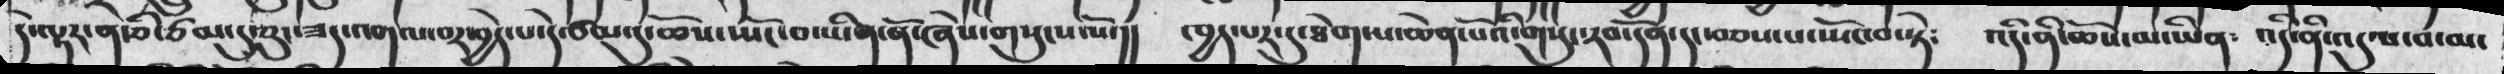དེ་ལྟར་ནེ་ཅི་ཙམ་དུ་ཅུ་ཟད་འགལ་བར་བྱེད་པ་དེ་ཙམ་དུ་ཆོས་ཡོང་བ་ཡིན་ནོ་ཞེས་གསུངསལོ་།།  ཁྱད་པར་དུ་ཐེགས་པ་ཆེན་པོའི་གསུང་རབ་དོན་དང་བབས་པ་ཡོང་བ་ཏེ༴ འདི་ནི་ཆོས་མ་ཡིན༴ འདི་ནི་འདུལ་བ་མ་
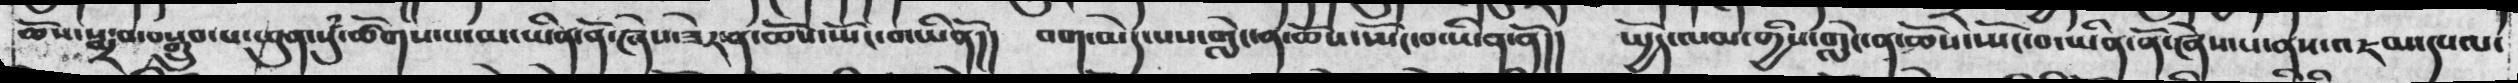ཆོས་སྨྲ་བ་བསྒྲུབ་པ་ཕུན་སུཾ་ཚོགས་པ་མ་ཡིན་ནོ་ཞེས་ཟེར་ན་ཆོས་ཡོང་བ་ཡིནོ།། བག་མེད་པས་གླེང་ན་ཆོས་ཡོང་བ་
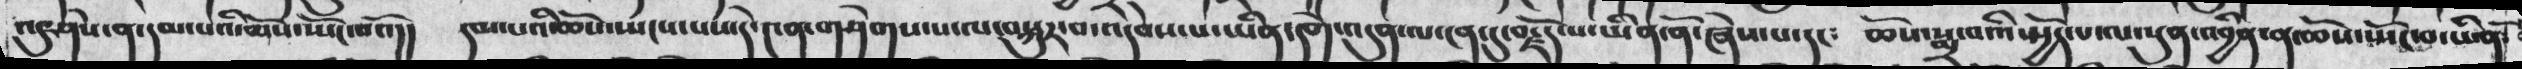འདུ་ཤེས་ན་དམ་པའི་ཆོས་ཡོང་བའོ་།།   དམ་པའི་ཆོས་སྤངས་པས་དེ་༤ན་གཤེགས་པ་ལ་བསྐུར་བ་འདེབས་པ་ཡིན་དགེ་འདུན་ལ་ངན་དུ་བརྗོད་པ་ཡིན་ནོ་ཞེས་པ་དང༴   ཆོས་སྨྲ་བའི་ཡྱོད་པ་ལ་སུན་འབྱིན་ན་ཆོས་སྤོང་བ་ཡིན་
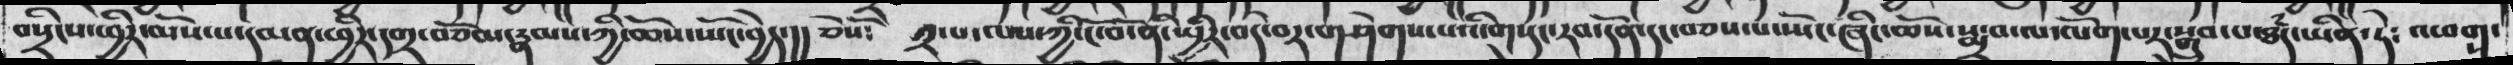བསྲིངས་ཕྱིར་མོས་པ་དམན་ཕྱིར་དགྲ་བཅོམ་རྣམས་ཀྱི་ཆོས་སྤོང་བྱེད་།།  ཅེསོ༴  ༢་པ་ལས་ཀྱི་ངོ་བོ་ནི་སྤྱིར་བདེ་བར་གཤེགས་པ་དི་གསུང་རབ་དོན་དང་བཅས་པ་སྤོང་ཞིང་ཆོས་སྨྲ་བ་ལ་ལོག་པར་སྒྲུབ་པ་ཐཾད་ཡིན་ཏེ༴  འཕག་
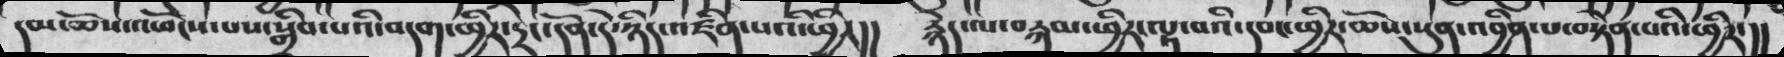དམ་ཆོས་འཕོངས་པས་སྒྲིབ་པའི་བདག་ཕྱིར་དྲང་དོན་དེ་ཉིད་འཛིན་པའི་ཕྱིར།།  རྙེད་ལ་བརྐམ་ཕྱིར་ལྟ་བའི་དབང་ཕྱིར་ཆོས་སུན་འབྱིན་པ་བསྟེན་པའི་ཕྱིར་།།
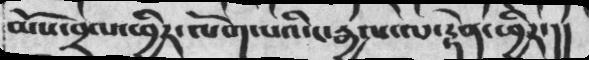མོས་བྲལ་ཕྱིར་ལོག་པའི་ང་རྒྱལ་ལ་རྟེན་ཕྱིར་།།
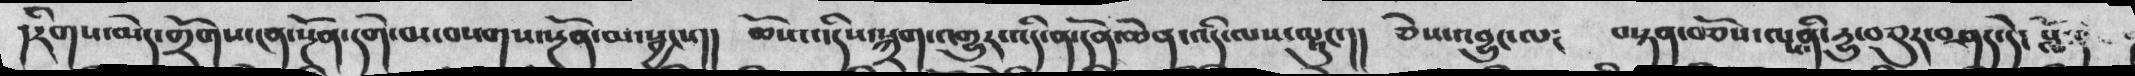།རིགས་མེད་གྲོགས་ངན་སྔོན་དགེ་བ་བསགས་སྔོན་མ་སྦྱངས།།  ཆོས་འདིས་སྐྲག་འགྱུར་འདི་ན་དོན་ཆེན་འདི་ལས་ལྟུང་།།   ཅེས་འབྱུང་ལ༴  བསྟན་བཅོས་ལས་ནི་རྱ་བཅུར་བཤད་དེ་བློ་དང
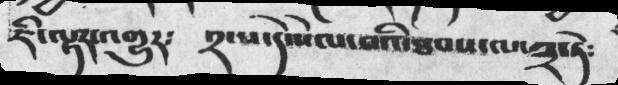ཇི་ལྟར་འགྱུར༴  ༢་པ་དེ་སེལ་བའི་ཐབས་ལ་༣་ཏེ༴
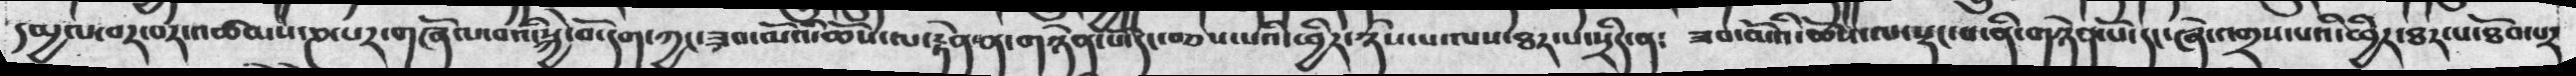དམྱལ་བར་བར་འཚམས་ཎ་པར་གཞོལ་བའི་སྐྱེ་བོ་དག་ཀྱང་ཟབ་མོའི་ཆོས་ལ་རྟེན་ན་གཉེན་པོ་དང་བཅས་པའི་ཕྱིར་ཉེས་པ་ལས་ཐར་པ་སྲིད་ན༴  ཟབ་མོའི་ཆོས་ལ་སྡང་བ་ནི་གཉེན་པོ་དང་ཞེ་འགྲས་པའི་ཕྱིར་ཐར་པ་ཐོབ་པར་
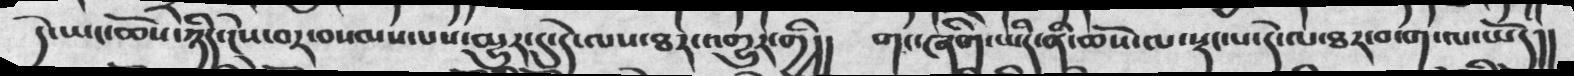དེ་ཡང་ཆོས་ཉིད་ངེས་བར་བསམས་པས་མྱུར་དུ་དེ་ལས་ཐར་འགྱུར་གྱི།།  གང་ཞིག་ཡིད་ནི་ཆོས་ལ་སྡང་པ་དེ་ལ་ཐར་བ་ག་ལ་ཡོད།།
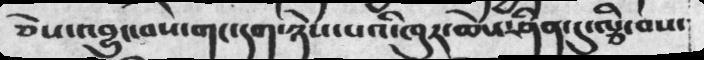ཅེས་འབྱུང་བས་གང་དག་ཉེས་པའི་ཁུར་ཆེས་ཤིན་དུ་ལྕི་བས་
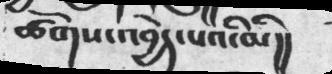ཚོགས་འབྱེད་པའི་མི།།ི
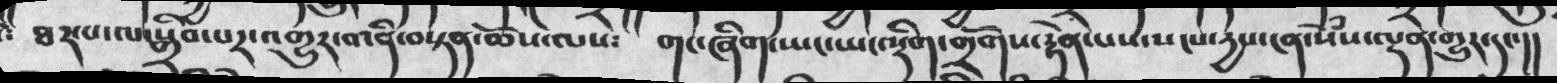ཐར་པ་ལ་སྒྲིབ་པར་འགྱུར་བ་ནི་བསྟན་ཆོས་ལས༴  གང་ཞིག་ཡང་ཡང་སྡིགས་གྲོགས་རྟེན་པས་སངས་རྱས་ངན་སེཾས་ལྡན་གྱུར་དང་།།
